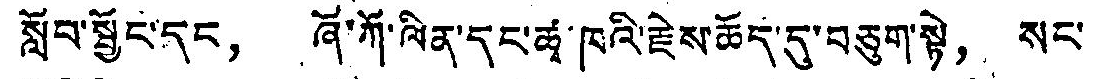སློབ་སྦྱོང་དང， ཞོ་ཀོ་ལིན་དང་ཚྭ་ཁའི་རྗེས་ཆོད་དུ་བཅུག་སྟེ， སང་
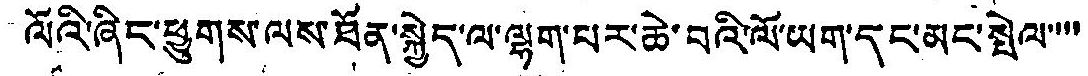ལོའི་ཞིང་ཕྱུགས་ལས་ཐོན་སྐྱེད་ལ་ལྷག་པར་ཆེ་བའི་ལོ་ཡག་དང་མང་སྤེལ་་་
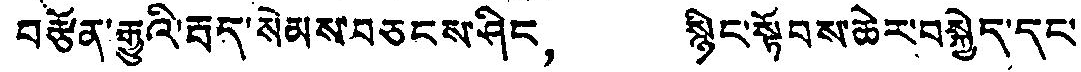བརྩོན་རྒྱུའི་རྦད་སེམས་བཅངས་ཤིང， སྙིང་སྟོབས་ཆེར་བསྐྱེད་དང་
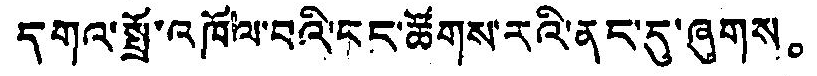དགའ་སྤྲོ་འཁོལ་བའི་དང་ཚོགས་རའི་ནང་དུ་ཞུགས。
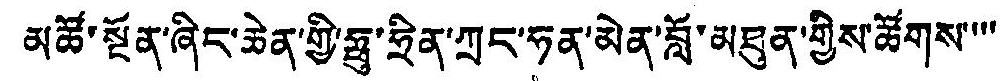མཚོ་སྔོན་ཞིང་ཆེན་གྱི་ཧྥུ་ཧྲིན་ཀྲང་ཧན་མེན་བློ་མཐུན་གྱིས་ཚོགས་་་
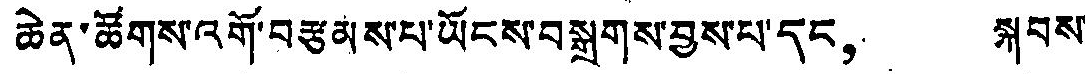ཆེན་ཚོགས་འགོ་བརྩམས་པ་ཡོངས་བསྒྲགས་བྱས་པ་དང， སྐབས་
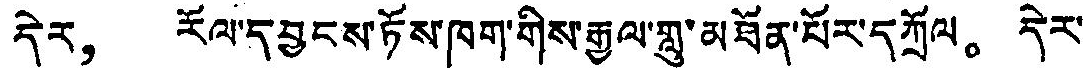དེར， རོལ་དབྱངས་ཏོས་ཁག་གིས་རྒྱལ་གླུ་མཐོན་པོར་དཀྲོལ。 དེར་
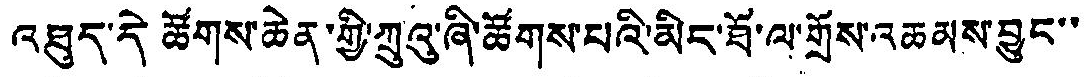འཐུད་དེ ཚོགས་ཆེན་གྱི་ཀྲུའུ་ཞི་ཚོགས་པའི་མིང་པོ་ལ་གྲོས་འཆམས་བྱུང་་
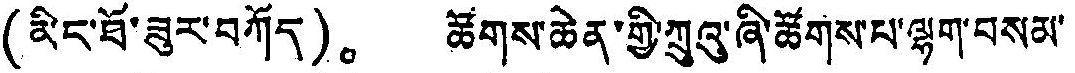(མི་ང་ཐོ་ཟུར་བཀོད)。 ཚོགས་ཆེན་གྱི་ཀྲུའུ་ཞི་ཚོགས་པ་ལྷག་བསམ་
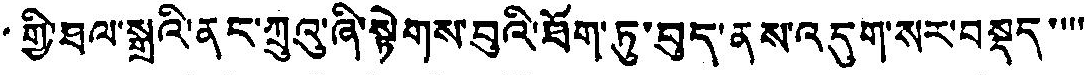གྱི་ཐལ་སྒྲའི་ནད་ཀྲུའུ་ཞི་སྟེགས་བུའི་ཐོག་ཏུ་བུད་ནས་འདུག་སར་བསྡད་་་་
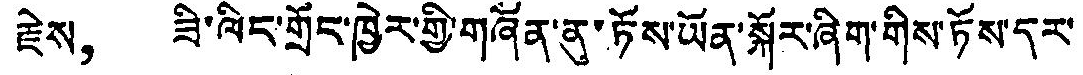རྗེས， ཟི་ལིང་གྲོང་ཁྱེར་གྱི་གཞོན་ནུ་ཏོས་ཡོན་སྐོར་ཞིག་གིས་ཏོས་དར་
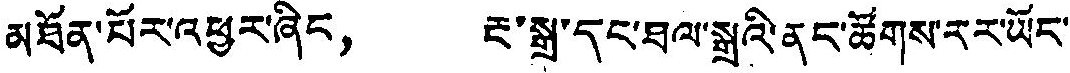མཐོན་པོར་འཕྱུར་ཞིང， རྔ་སྒྲ་དང་ཐལ་སྒྲའི་ནང་ཚོགས་རར་ཡོང་
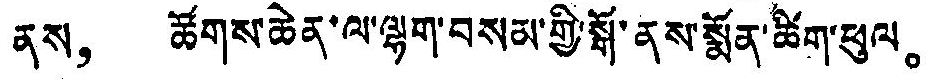ནས， ཚོགས་ཆེན་ལ་ལྷག་བསམ་གྱི་སྒོ་ནས་སྨོན་ཚིག་ཕུལ。
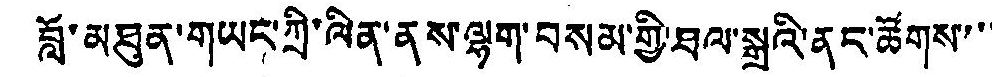བློ་མཐུན་གཡང་ཀྲི་ལིན་ནས་ལྷག་བསམ་གྱི་ཐལ་སྒྲའི་ནང་ཚོགས་་་
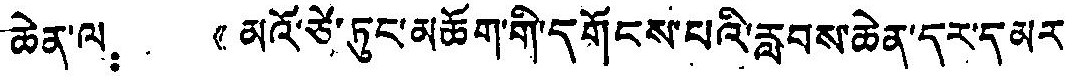ཆེན་ལ： “མའོ་ཙེ་ཏུང་མཆོག་གི་དགོངས་པའི་རླབས་ཆེན་དར་དམར
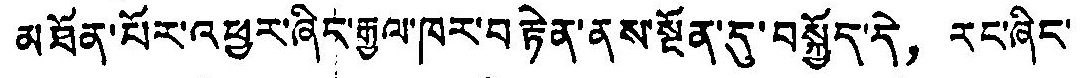མཐོན་པོར་འཕྱར་ཞིང་རྒྱལ་ཁར་བརྟེན་ནས་སྔོན་དུ་བསྐྱོད་དེ， རང་ཞིང་
